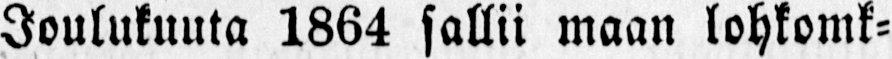Joulukuuta 1864 sallii maan lohkomk-
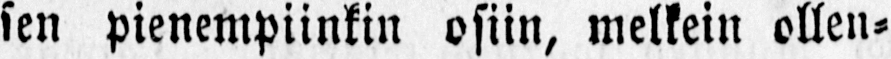sen pienempiinkin osiin, melkein ollen-
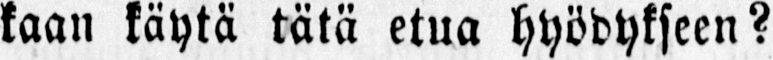kaan käytä tätä etua hyödykseen?
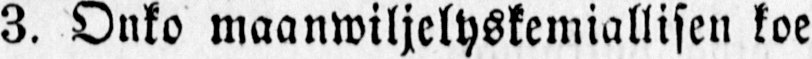3. Onko maanwiljelyskemiallisen koe
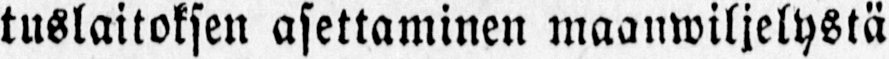tuslaitoksen asettaminen maanwiljelystä
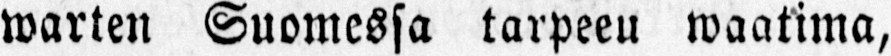warten Suomessa tarpeeu waatima,
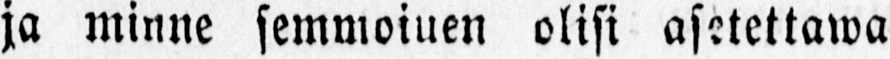ja minne semmoinen olisi asetettawa
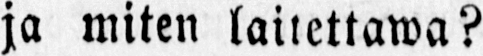ja miten laitettawa?
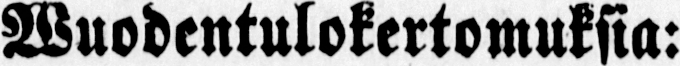Wuodentulokertomuksia:
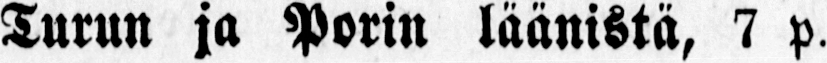Turun ja Porin läänistä, 7 p.
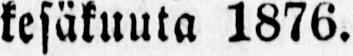kesäkuuta 1876.
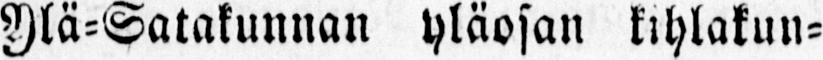Ylä-Satakunnan yläosan kihlakun-
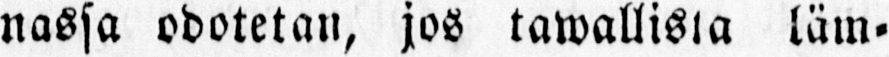nassa odotetan, jos tawallista läm-
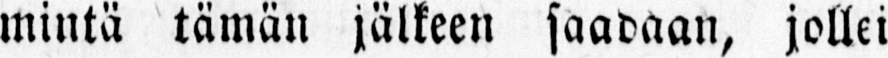mintä tämän jälkeen saadaan, jollei
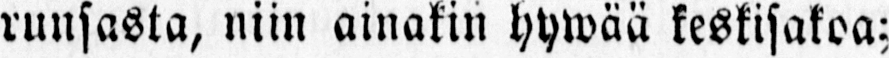runsasta, niin ainakin hywää keskisatoa;
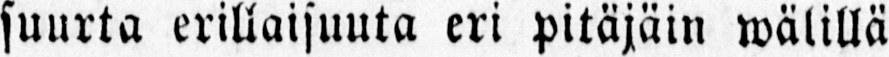suurta erillaisuuta eri pitäjäin wälillä
